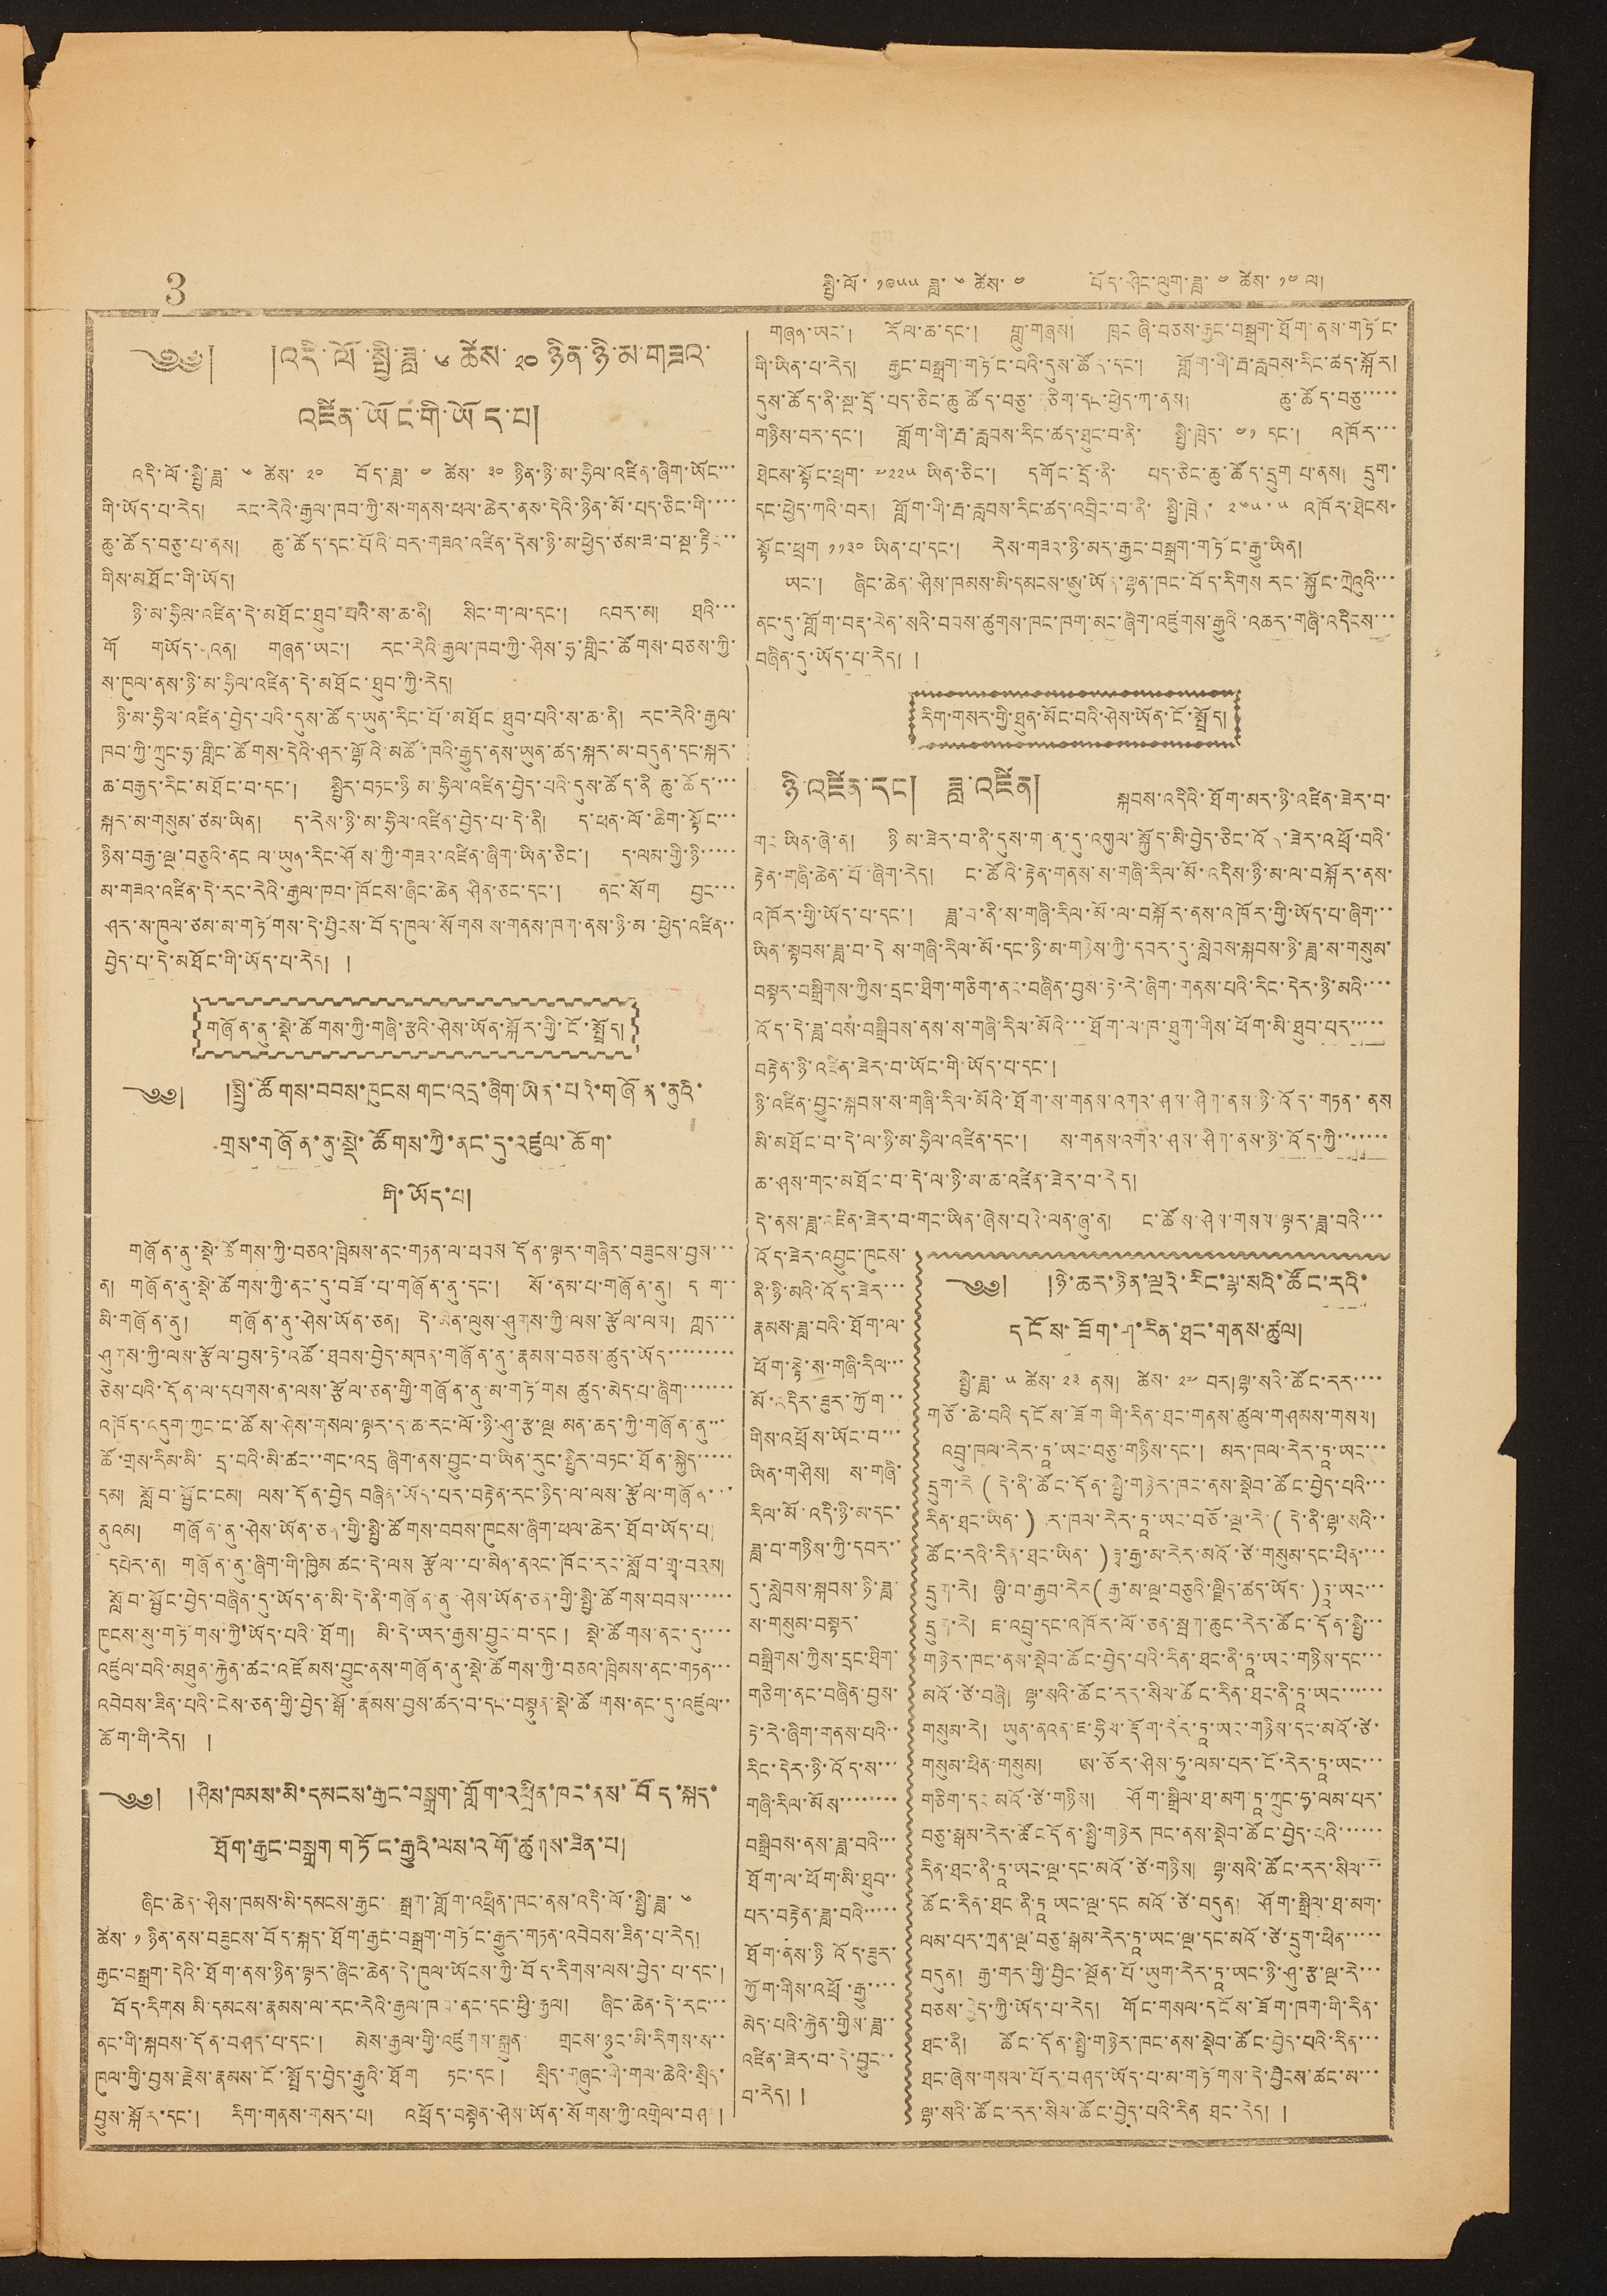3 སྤྱི་ལོ་ ༡༩༥༥ ཟླ་ ༦ ཚེས་ ༤ བོད་ཤིང་ལུག་ཟླ་ ༤ ཚེས་ ༡༤ ལ།
༄༅། །འདི་ལོ་སྤྱི་ཟླ་ ༦ ཚེས་ ༢༠ ཉིན་ཉི་མ་གཟའ་
འཛིན་ཡོང་གི་ཡོད་པ།
འདི་ལོ་སྤྱི་ཟླ་ ༦ ཚེས་ ༢༠ བོད་ཟླ་ ༤ ཚེས་ ༣༠ ཉིན་ཉི་མ་ཧྲིལ་འཛིན་ཞིག་ཡོང་་་
གི་ཡོད་པ་རེད། རང་རེའི་རྒྱལ་ཁབ་ཀྱི་ས་གནས་ཕལ་ཆེར་ནས་དེའི་ཉིན་མོ་པད་ཅིང་གི་་་་
ཆུ་ཚོད་བཅུ་པ་ནས། ཆུ་ཚོད་དང་པོའི་བར་གཟའ་འཛིན་དེས་ཉི་མ་ཕྱེད་ཙམ་ཟ་བ་སྔ་རྟིང་་
གིས་མཐོང་གི་ཡོད།
ཉི་མ་ཧྲིལ་འཛིན་དེ་མཐོང་ཐུབ་པའི་ས་ཆ་ནི། སིང་ག་ལ་དང་། འབར་མ། ཐའི་་་
གོ གཡོད་ནའན། གཞན་ཡང་། རང་རེའི་རྒྱལ་ཁབ་ཀྱི་ཤིས་ཧྲ་གླིང་ཚོགས་བཅས་ཀྱི་
ས་ཁུལ་ནས་ཉི་མ་ཧྲིལ་འཛིན་དེ་མཐོང་ཐུབ་ཀྱི་རེད།
ཉི་མ་ཧྲིལ་འཛིན་བྱེད་པའི་དུས་ཚོད་ཡུན་རིང་པོ་མཐོང་ཐུབ་པའི་ས་ཆ་ནི། རང་རེའི་རྒྱལ་
ཁབ་ཀྱི་ཀྲུང་ཧྲ་གླིང་ཚོགས་དེའི་ཤར་ལྷོའི་མཚོ་ཁའི་རྒྱུད་ནས་ཡུན་ཚད་སྐར་མ་བདུན་དང་སྐར་
ཆ་བརྒྱད་རིང་མཐོང་བ་དང་། སྤྱིར་བཏང་ཉི་མ་ཧྲིལ་འཛིན་བྱེད་པའི་དུས་ཚོད་ནི ཆུ་ཚོད་་་
སྐར་མ་གསུམ་ཙམ་ཡིན། ད་རེས་ཉི་མ་ཧྲིལ་འཛིན་བྱེད་པ་དེ་ནི། ད་ཕན་ལོ་ཆིག་སྟོང་་་
ཉིས་བརྒྱ་ལྔ་བཅུའི་ནང ལ་ཡུན་རིང་ཤོས་ཀྱི་གཟའ་འཛིན་ཞིག་ཡིན་ཅིང་། ད་ལམ་གྱི་ཉི་་་་་
མ་གཟའ་འཛིན་དེ་རང་རེའི་རྒྱལ་ཁབ་ཁོངས་ཞིང་ཆེན ཤིན་ཅང་དང་། ནང་སོག བྱང་་་
ཤར་ས་ཁུལ་ཙམ་མ་གཏོགས་དེ་བྱིངས་བོད་ཁུལ་སོགས ས་གནས་ཁག་ནས་ཉི་མ་ཕྱེད་འཛིན་་
བྱེད་པ་དེ་མཐོང་གི་ཡོད་པ་རེད། །
གཞོན་ནུ་སྡེ་ཚོགས་ཀྱི་གཞི་རྩའི་ཤེས་ཡོན་སྐོར་གྱི་ངོ་སྤྲོད།
༄༅། །སྤྱི་ཚོགས་བབས་ཁུངས་གང་འདྲ་ཞིག་ཡིན་པའི་གཞོན་ནུའི་
གྲས་གཞོན་ནུ་སྡེ་ཚོགས་ཀྱི་ནང་དུ་འཛུལ་ཆོག་
གི་ཡོད་པ།
གཞོན་ནུ་སྡེ་ཚོགས་ཀྱི་བཅའ་ཁྲིམས་ནང་གཏན་ལ་ཕབས དོན་ལྟར་གཞིར་བཟུངས་བྱས་་་
ན། གཞོན་ནུ་སྡེ་ཚོགས་ཀྱི་ནང་དུ་བཟོ་པ་གཞོན་ནུ་དང་། སོ་ནམ་པ་གཞོན་ནུ། དག་་
མི་གཞོན་ནུ། གཞོན་ནུ་ཤེས་ཡོན་ཅན། དེ་མིན་ལུས་ཤུགས་ཀྱི་ལས་རྩོལ་ལམ། ཀླད་་་
ཤུགས་ཀྱི་ལས་རྩོལ་བྱས་ཏེ་འཚོ་ཐབས་བྱེད་མཁན་གཞོན་ནུ་རྣམས་བཅས་ཚུད་ཡོད་་་་་་་་་
ཅེས་པའི་དོན་ལ་དཔགས་ན་ལས་རྩོལ་ཅན་གྱི་གཞོན་ནུ་མ་གཏོགས ཚུད་མེད་པ་ཞིག་་་་་་་
འཁོད་འདུག་ཀྱང་ང་ཚོས་ཤེས་གསལ་ལྟར་ད་ཆ་རང་ལོ་ཉི་ཤུ་རྩ་ལྔ མན་ཆད་ཀྱི་གཞོན་ནུ་་་
ཚོ་གྲས་རིམ་མི་དྲ་བའི་མི་ཚང་་གང་འདྲ ཞིག་ནས་བྱུང་བ་ཡིན་རུང་སྤྱིར་བཏང་ཐོན་སྐྱེད་་་་་
དམ། སློབ་སྦྱོང་ངམ། ལས་དོན་བྱེད བཞིན་ཡོད་པར་བརྟེན་རང་ཉིད་ལ་ལས་རྩོལ་གཞོན་་་
ནུའམ། གཞོན་ནུ་ཤེས་ཡོན་ཅན་གྱི་སྤྱི་ཚོགས་བབས་ཁུངས་ཞིག་ཕལ་ཆེར་ཐོབ་ཡོད་པ།
དཔེར་ན། གཞོན་ནུ་ཞིག་གི་ཁྱིམ ཚང་དེ་ལས རྩོལ་་པ་མིན་ནའང་ཁོང་རང་སློབ་གྲྭ་བའམ།
སློབ་སྦྱོང་བྱེད་བཞིན་དུ་ཡོད་ན་མི་དེ་ནི་གཞོན་ནུ་ཤེས་ཡོན་ཅན་གྱི་སྤྱི་ཚོགས་བབས་་་་་་
ཁུངས་སུ་གཏོགས་ཀྱི་ཡོད་པའི་ཐོག། མི་དེ་ཡར་རྒྱས་བྱུང་བ་དང་། སྡེ་ཚོགས་ནང་དུ་་་་
འཛུལ་བའི་མཐུན་རྐྱེན་ཚང་འཛོམས་བྱུང་ནས་གཞོན་ནུ་སྡེ་ཚོགས་ཀྱི་བཅའ་ཁྲིམས་ནང་གཏན་་་
འབེབས་ཟིན་པའི་ངེས་ཅན་གྱི་བྱེད་སྒོ་རྣམས་བྱས་ཚར་བ་དང་བསྟུན་སྡེ་ཚོགས་ནང་དུ་འཛུལ་་
ཆོག་གི་རེད། །
༄༅། །ཤིས་ཁམས་མི་དམངས་རྒྱང་བསྒྲག་གློག་འཕྲིན་ཁང་ནས་བོད་སྐད་
ཐོག་རྒྱང་བསྒྲག་གཏོང་རྒྱུའི་ལས་འགོ་ཚུགས་ཟིན་པ།
ཞིང་ཆེན་ཤིས་ཁམས་མི་དམངས་རྒྱང་སྒྲག་གློག་འཕྲིན་ཁང་ནས་འདི་ལོ་སྤྱི་ཟླ་ ༦
ཚེས་ ༡ ཉིན་ནས་བཟུངས་བོད་སྐད་ཐོག་རྒྱང་བསྒྲག་གཏོང་རྒྱུར་གཏན་འབེབས་ཟིན་པ་རེད།
རྒྱང་བསྒྲག་དེའི་ཐོག་ནས་ཉིན་ལྟར་ཞིང་ཆེན་དེ་ཁུལ་ཡོངས་ཀྱི་བོད་རིགས་ལས་བྱེད་པ་དང་།
བོད་རིགས་མི་དམངས་རྣམས་ལ་རང་རེའི་རྒྱལ་ཁབ་ནང་དང་ཕྱི་རྒྱལ། ཞིང་ཆེན་དེ་རང་་་
ནང་གི་སྐབས་དོན་བཤད་པ་དང་། མེས་རྒྱལ་གྱི་འཛུགས་སྐྲུན་ གྲངས་ཉུང་མི་རིགས་ས་་
ཁུལ་གྱི་བྱས་རྗེས་རྣམས་ངོ་སྤྲོད་བྱེད་རྒྱུའི་ཐོག ཏང་དང་། སྲིད་གཞུང་གི་གལ་ཆེའི་སྲིད་
བྱུས་སྐོར་དང་། རིག་གནས་གསར་པ། འཕྲོད་བསྟེན་ཤེས་ཡོན་སོགས་ཀྱི་འགྲེལ་བཤད །
གཞན་ཡང་། རོལ་ཆ་དང་། གླུ་གཞས། ཁྲང་ཞི་བཅས་རྒྱང་བསྒྲག་ཐོག་ནས་གཏོང་
གི་ཡིན་པ་རེད། རྒྱང་བསྒྲག་གཏོང་བའི་དུས་ཚོད་དང་། གློག་གི་རྦ་རླབས་རིང་ཚད་སྐོར།
དུས་ཚོད་ནི་སྔ་དྲོ་པད་ཅིང་ཆུ་ཚོད་བཅུ་གཅིག་དང་ཕྱེད་ཀ་ནས། ཆུ་ཚོད་བཅུ་་་་་
གཉིས་བར་དང་། གློག་གི་རྦ་རླབས་རིང་ཚད་ཐུང་བ་ནི་ སྤྱི་ཁྲེད་ ༤༡ དང་། འཁོར་་་
ཐེངས་སྟོང་ཕྲག་ ༧༢༢༥ ཡིན་ཅིང་། དགོང་དྲོ་ནི་ པད་ཅིང་ཆུ་ཚོད་དྲུག་པ་ནས། དྲུག་
དང་ཕྱེད་ཀའི་བར། གློག་གི་རྦ་རླབས་རིང་ཚད་འབྲིང་བ་ནི་ སྤྱི་ཁྲེ་ ༢༦༥་༥ འཁོར་ཐེངས་
སྟོང་ཕྲག་ ༡༡༣༠ ཡིན་པ་དང་། རེས་གཟའ་ཉི་མར་རྒྱང་བསྒྲག་གཏོང་རྒྱུ་ཡིན།
ཡང་། ཞིང་ཆེན་ཤིས་ཁམས་མི་དམངས་ཨུ་ཡོན་ལྷན་ཁང་བོད་རིགས་རང་སྐྱོང་ཀྲེའུའི་་་
ནང་དུ་གློག་བརྡ་ལེན་སའི་བབས་ཚུགས་ཁང་ཁག་མང་ཞིག་འཛུགས་རྒྱུའི་འཆར་གཞི་འདིངས་་་
བཞིན་དུ་ཡོད་པ་རེད། །
རིགས་གསར་གྱི་ཐུན་མོང་བའི་ཤེས་ཡོན་ངོ་སྤྲོད།
ཉི་འཛིན་དང། ཟླ་འཛིན། སྐབས་འདིའི་ཐོག་མར་ཉི་འཛིན་ཟེར་བ་
ཉི་འཛིན་དང། ཟླ་འཛིན། སྐབས་འདིའི་ཐོག་མར་ཉི་འཛིན་ཟེར་བ་
གང་ཡིན་ཞེ་ན། ཉི མ་ཟེར་བ་ནི་དུས་གཏན་དུ་འགྲུལ་སྐྱོད་མི་བྱེད་ཅིང་འོད་ཟེར་འཕྲོ་བའི་
རྟེན་གཞི་ཆེན་པོ་ཞིག་རེད། ང་ཚོའི་རྟེན་གནས་ས་གཞི་རིལ་མོ་འདིས་ཉི་མ་ལ་བསྐོར་ནས་
འཁོར་གྱི་ཡོད་པ་དང་། ཟླ་བ་ནི་ས་གཞི་རིལ་མོ་ལ་བསྐོར་ནས་འཁོར་གྱི་ཡོད་པ་ཞིག་་་
ཡིན་སྟབས་ཟླ་བ་དེ་ས་གཞི་རིལ་མོ་དང་ཉི་མ་གཉིས་ཀྱི་དབར་དུ་སླེབས་སྐབས་ཉི་ཟླ་ས་གསུམ་
བསྟར་བསྒྲིགས་ཀྱིས་དྲང་ཐིག་གཅིག་ནང་བཞིན་བྱས་ཏེ་རེ་ཞིག་གནས་པའི་རིང་དེར་ཉི་མའི་་་་
འོད་དེ་ཟླ་བས་བསྒྲིབས་ནས་ས་གཞི་རིལ་མོའི་་་ཐོག་ལ་ཁ་ཐུག་གིས་ཕོག་མི་ཐུབ་པར་་་་་
བརྟེན་ཉི་འཛིན་ཟེར་བ་ཡོང་གི་ཡོད་པ་དང་།
ཉི་འཛིན་བྱུང་སྐབས་ས་གཞི་རིལ་མོའི་ཐོག་ས་གནས་འགའ་ཤས་ཤིག་ནས་ཉི་འོད་གཏན་ནས་
མི་མཐོང་བ་དེ་ལ་ཉི་མ་ཧྲིལ་འཛིན་དང་། ས་གནས་འགའ་ཤས་ཤིག་ནས་ཉི་འོད་ཀྱི་་་་་་་
ཆ་ཤས་གང་མཐོང་བ་དེ་ལ་ཉི་མ་ཆ་འཛིན་ཟེར་བ་རེད།
དེ་ནས་ཟླ་འཛིན་ཟེར་བ་གང་ཡིན་ཞེས་པའི་ལན་ཞུ་ན། ང་ཚོས་ཤེས་གསལ་ལྟར་ཟླ་བའི་་་
འོད་ཟེར་འབྱུང་ཁུངས་
ནི་ཉི་མའི་འོད་ཟེར་་་
རྣམས་ཟླ་བའི་ཐོག་ལ་
ཕོག་སྟེ་ས་གཞི་རིལ་་་
མོ་འདིར་ཟུར་ཀྱོག་་
གིས་འཕྲོས་ཡོང་བ་་་
ཡིན་གཤིས། ས་གཞི་
རིལ་མོ་འདི་ཉི་མ་དང་
ཟླ་བ་གཉིས་ཀྱི་དབར་་
དུ་སླེབས་སྐབས་ཉི་ཟླ་
ས་གསུམ་བསྟར་
བསྒྲིགས་ཀྱིས་དྲང་ཐིག་
གཅིག་ནང་བཞིན་བྱས་
ཏེ་རེ་ཞིག་གནས་པའི་་
རིང་དེར་ཉི་འོད་ས་་་
གཞི་རིལ་མོས་་་་་་་་
བསྒྲིབས་ནས་ཟླ་བའི་་་
ཐོག་ལ་ཕོག་མི་ཐུབ་་
པར་བརྟེན་ཟླ་བའི་་་་་
ཐོག་ནས་ཉི འོད་ཟུར་
ཀྱོག་གིས་འཕྲོ་རྒྱུ་་་་
མེད་པའི་རྐྱེན་གྱིས་ཟླ་་
འཛིན་ཟེར་བ་དེ་བྱུང་་
བ་རེད། །
༄༅། །ཉེ་ཆར་ཉིན་ལྔའི་རིང་ལྷ་སའི་ཚོང་རའི་
དངོས་ཟོག་གི་རིན་ཐང་གནས་ཚུལ།
སྤྱི་ཟླ་ ༥ ཚེས་ ༢༣ ནས། ཚེས་ ༢༧ བར། ལྷ་སའི་ཚོང་རར་་་་
གཙོ་ཆེ་བའི དངོས་ཟོག གི་རིན་ཐང་གནས་ཚུལ་གཤམས་གསལ།
འབྲུ་ཁལ་རེར་དཱ་ཡང་བཅུ་གཉིས་དང་། མར་ཁལ་རེར་ཏྰ་ཡང་་་
དྲུག་རེ་ ( དེ་ནི་ཚོང་དོན་སྤྱི་གཉེར་ཁང་ནས་སྡེབ་ཚོང་བྱེད་པའི་་་་
རིན་ཐང་ཡིན་ ) ར་ཁལ་རེར་དཱ་ཡང་བཅོ་ལྔ་རེ་ ( དེ་ནི་ལྷ་སའི་་
ཚོང་རའི་རིན་ཐང་ཡིན་ ) ཚྭ་རྒྱ་མ་རེར་མའོ་ཙེ་གསུམ་དང་ཕིན་་་་
དྲུག་རེ། ལྕི་བ་རྒྱབ་རེར་ ( རྒྱ་མ་ལྔ་བཅུའི་ལྗིད་ཚད་ཡོད་ ) དཱ་ཡང་་་
དྲུག་རེ། ཇ་འབྲུ་དང་འཁོར་ལོ་ཅན་སྦག་ཆུང་རེར་ཚོང་དོན་སྤྱི་་་
གཉེར་ཁང་ནས་སྡེབ་ཚོང་བྱེད་པའི་རིན་ཐང་ནི་དཱ་ཡང་གཉིས་དང་་་
མའོ་ཙེ་བཞི། ལྷ་སའི་ཚོང་རར་སིལ་ཚོང་རིན་ཐང་ནི་དཱ་ཡང་་་་་་
གསུམ་རེ། ཡུན་ནའན་ཇ་ཧྲིལ་རྡོག་རེར་དཱ་ཡང་གཉིས་དང་མའོ་ཙེ་
གསུམ་ཕིན་གསུམ། ཨ་ཅོར་ཤིས་ཧུ་ལམ་པར་ངོ་རེར་དཱ་ཡང་་་
གཅིག་དང་མའོ་ཙེ་གཉིས། ཤོག་སྒྲིལ་ཐ་མག་དཱ་ཀྲུང་ཧྭ་ལམ་པར་
བཅུ་སྒམ་རེར་ཚོང་དོན་སྤྱི་གཉེར ཁང་ནས་སྡེབ་ཚོང་བྱེད་པའི་་་་་་
རིན་ཐང་ནི་དཱ་ཡང་ལྔ་དང་མའོ་ཙེ་གཉིས། ལྷ་སའི་ཚོང་རར་སིལ་་་
ཚོང་རིན་ཐང་ནི་དཱ ཡང་ལྔ་དང མའོ་ཙེ་བདུན། ཤོག་སྒྲིལ་ཐ་མག་
ལམ་པར་ཀྲན་ལྔ་བཅུ་སྒམ་རེར་དཱ་ཡང་ལྔ་དང་མའོ་ཙེ་དྲུག་ཕིན་་་་་
བདུན། རྒྱ་གར་གྱི་བྱིང་སྔོན་པོ་ཡུག་རེར་དཱ་ཡང་ཉི་ཤུ་རྩ་ལྔ་རེ་་་
བཅས་བྱེད་ཀྱི་ཡོད་པ་རེད། གོང་གསལ་དངོས་ཟོག་ཁག་གི་རིན་
ཐང་ནི། ཚོང་དོན་སྤྱི་གཉེར་ཁང་ནས་སྡེབ་ཚོང་བྱེད་པའི་རིན་་་
ཐང་ཞེས་གསལ་པོར་བཤད་ཡོད་པ་མ་གཏོགས་དེ་བྱིངས་ཚང་མ་་་
ལྷ་སའི་ཚོང་རར་སིལ་ཚོང་བྱེད་པའི་རིན ཐང་རེད། །
